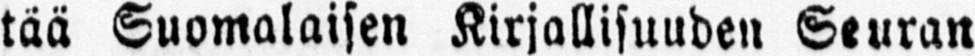tää Suomalaisen Kirjallisuuden Seuran
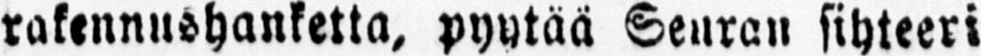rakennushanketta, pyytää Seuran sihteeri
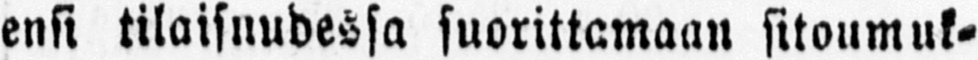ensi tilaisuudessa suorittamaan sitoumuk-
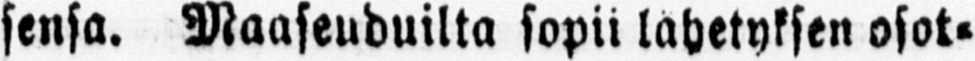sensa. Maaseuduilta sopii lähetyksen osat-
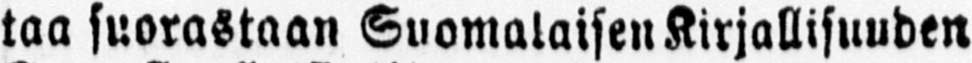taa suorastaan Suomalaisen Kirjallisuuden
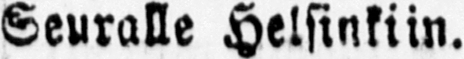Seuralle Helsinkiin.
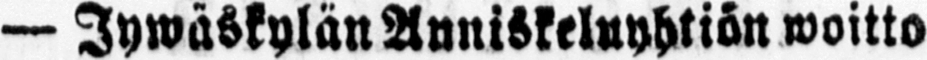— Jywäskylän Anniskeluyhtiön woitto
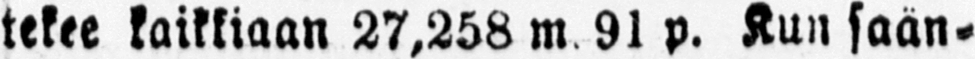tekee kaikkiaan 27,258 m 91 p. Kun sään-
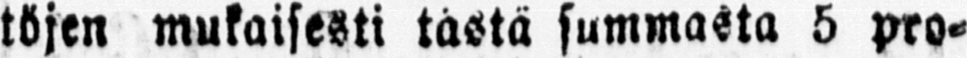töjen mukaisesti tästä summasta 5 pro-
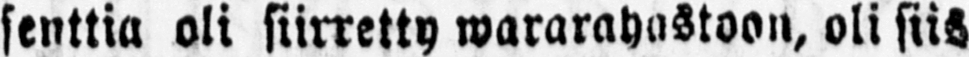senttia oli siirretty wararahastoon, oli siis
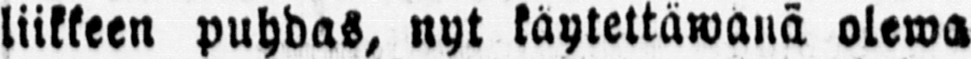liikkeen puhdas, nyt käytettäwänä olewa
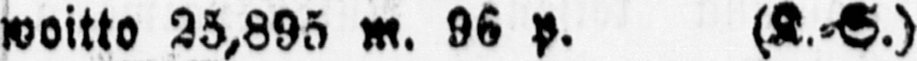woitto 25,895 m. 96 P. (K. S.)
